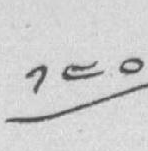༡༤༠
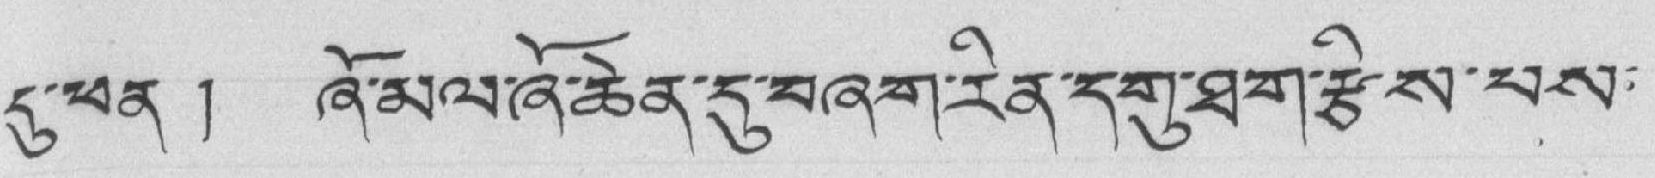དུ་ཕན ། ཞོ་མལ་ཞོ་ཆེན་དུ་བཞག་རིན་དགུ་ཐག་རྩིས་པས་
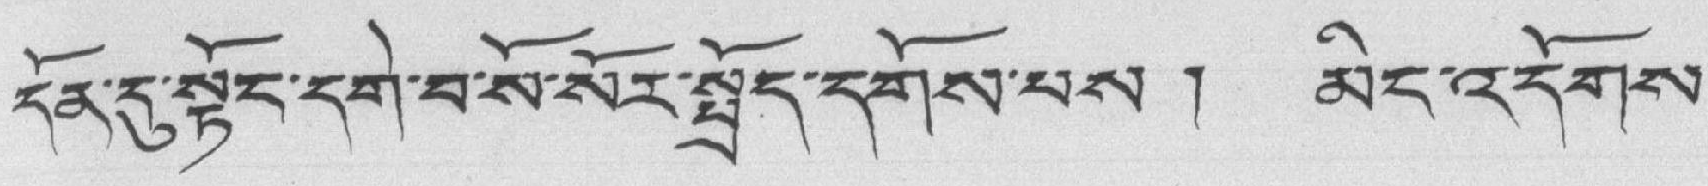དོན་དུ་སྟོང་དགེ་བ་སོ་སོར་སྤྲོད་དགོས་པས ། མིང་འདོགས་
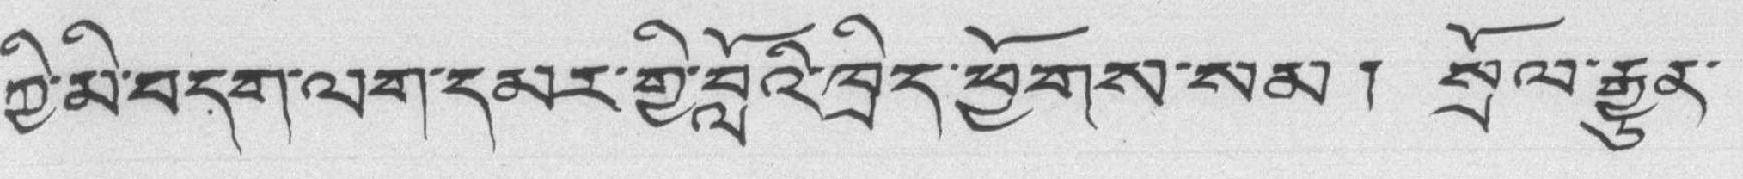ཀྱི་མི་བདག་ལག་དམར་གྱི་བློའི་ཁྲིད་ཕྱོགས་སམ། སྲོལ་རྒྱུན་
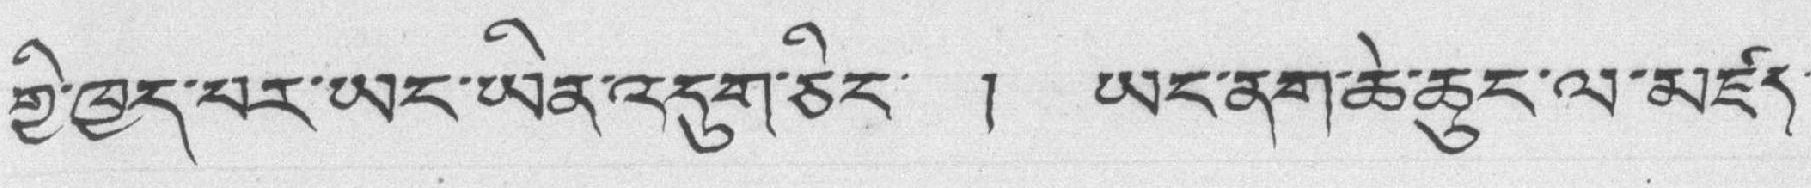གྱི་ཁྱད་པར་ཡང་ཡིན་འདུག་ཅིང་ ། ཡང་ནག་ཆེ་ཆུང་ལ་མཛད་
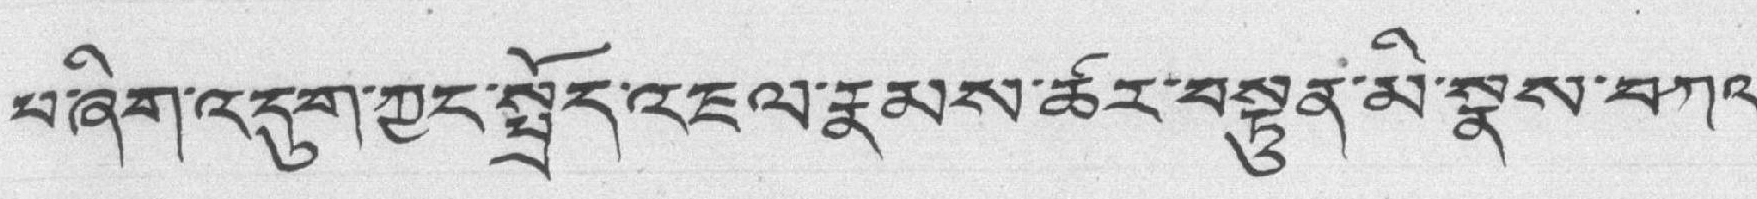པ་ཞིག་འདུག་ཀྱང་སྤྲོད་འཇལ་རྣམས་ཚར་བསྟུན་མི་སྣས་བཀའ་
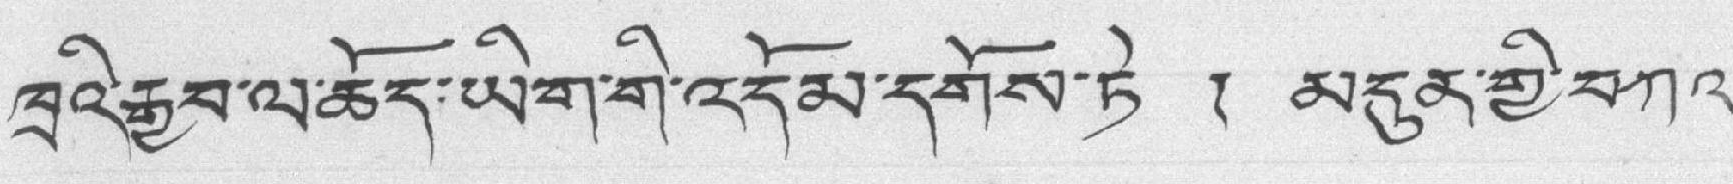ཁྲའི་རྒྱབ་ལ་ཆོད་ཡིག་གི་འདོམ་དགོས་ཏེ ། མདུན་གྱི་བཀའ་
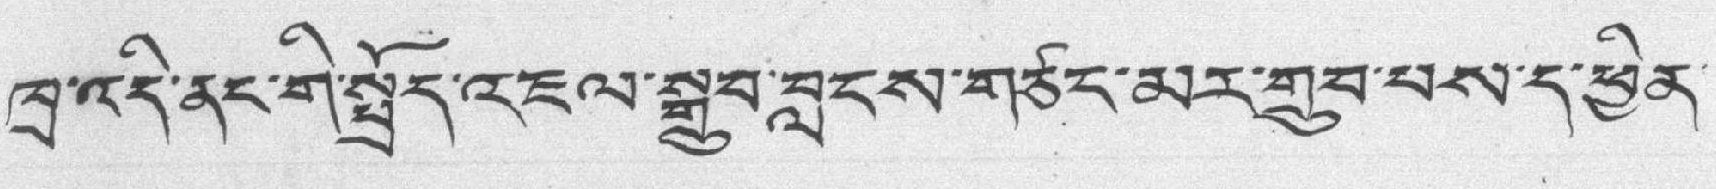ཁྲ་འདི་ནང་གི་སྤྲོད་འཇལ་སྒྲུབ་བླངས་གཙང་མར་གྲུབ་པས་ད་ཕྱིན་
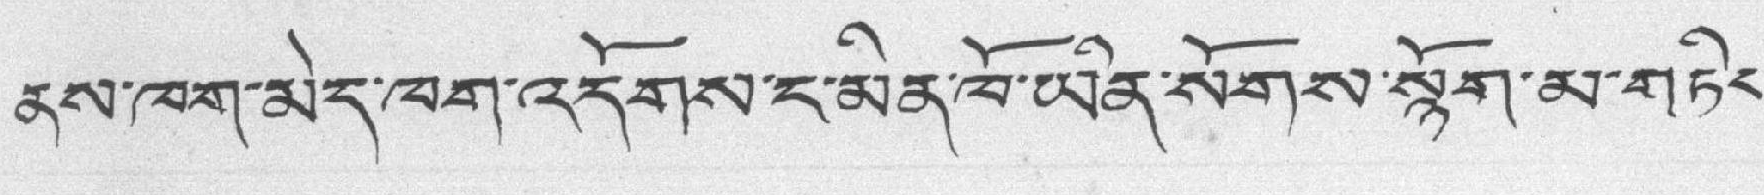ནས་ཁག་མེད་ཁག་འདོགས་ང་མིན་ཁོ་ཡིན་སོགས་སྙོག་མ་གཏིང་
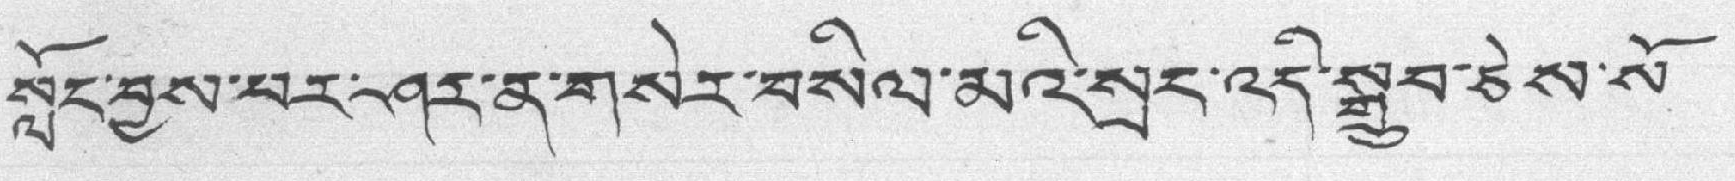སློང་བྱས་པར་ཤར་ན་གསེར་བསིལ་མའི་སྲང་འདི་སྒྲུབ་ཅེས་སོ་
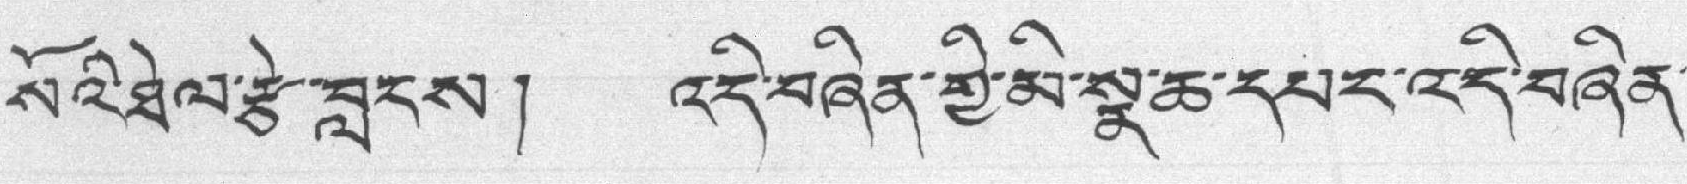སོའི་ཐེལ་རྩེ་བླངས། འདི་བཞིན་གྱི་མི་སྣ་ཆ་དཔང་འདི་བཞིན་
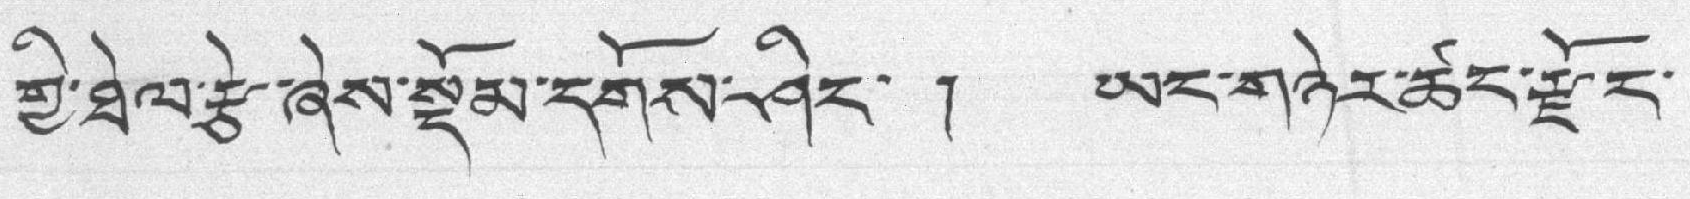གྱི་ཐེལ་རྩེ་ཞེས་སྡོམ་དགོས་ཤིང་ ། ཡང་གཉེར་ཚང་རྫོང་
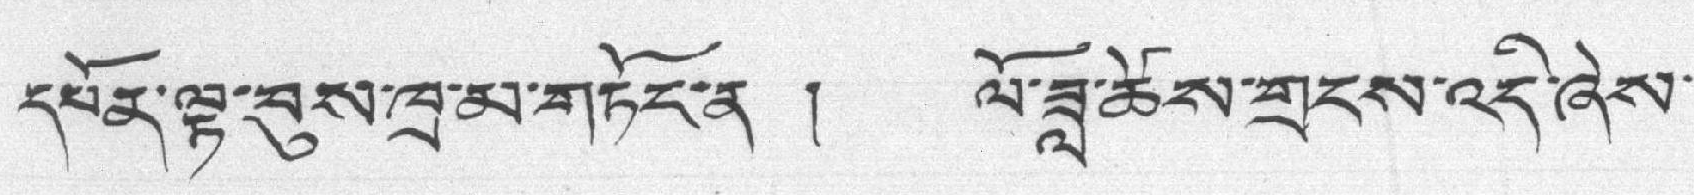དཔོན་ལྟ་བུས་ཁྲ་མ་གཏོང་ན ། ལོ་ཟླ་ཚེས་གྲངས་འདི་ཞེས་
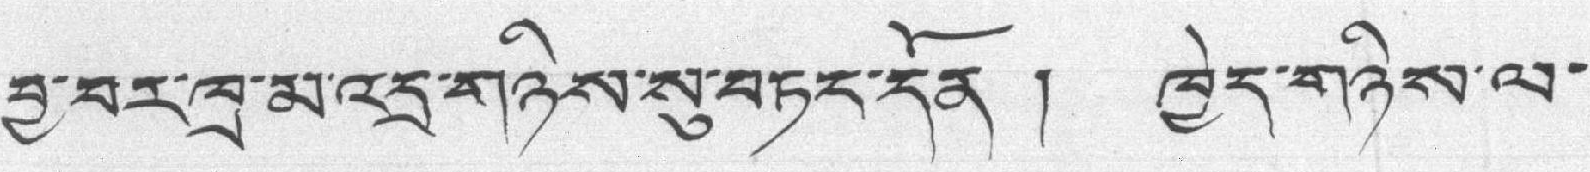བྱ་བར་ཁྲ་མ་འདྲ་གཉིས་སུ་བཏང་དོན ། ཁྱེད་གཉིས་ལ་
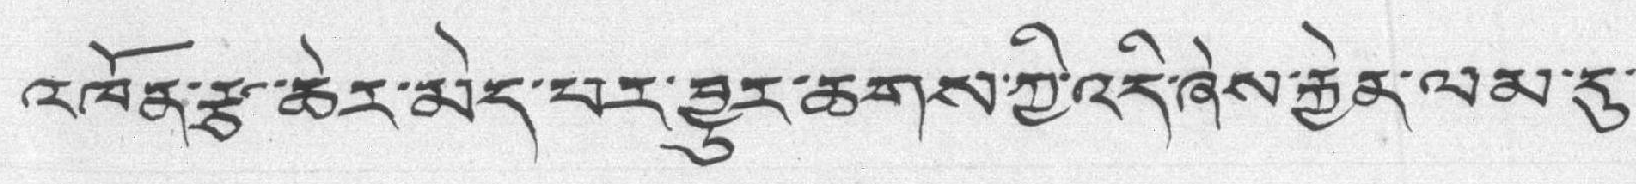འཁོན་རྩ་ཆེར་མེད་པར་བྱུར་ཆགས་ཀྱི་འདི་ཞེས་རྐྱེན་ལམ་དུ་
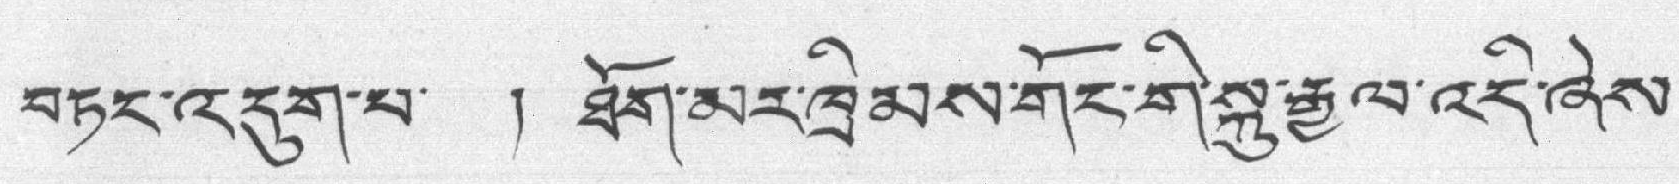བཏང་འདུག་པ་ ། ཐོག་མར་ཁྲིམས་གོང་གི་སྐུ་རྒྱལ་འདི་ཞེས་
